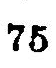75
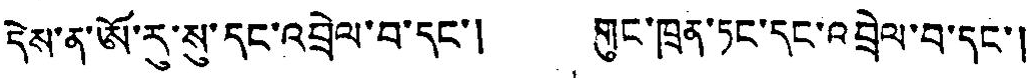དེས་ན་ཨོ་རུ་སུ་དང་འབྲེལ་བ་དང་། གུང་ཁྲན་ཏང་དང་འབྲེལ་བ་དང་།
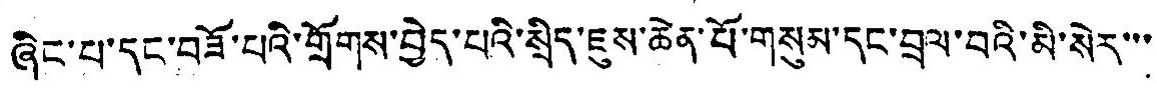ཞིང་པ་དང་བཟོ་པའི་གྲོགས་བྱེད་པའི་སྲིད་ཇུས་ཆེན་པོ་གསུམ་དང་བྲལ་བའི་མི་སེར་་་
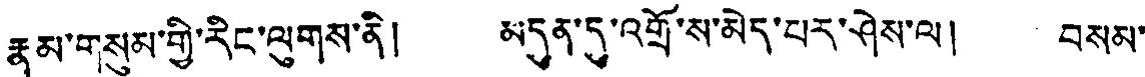རྣམ་གསུམ་གྱི་རིང་ལུགས་ནི། མདུན་དུ་འགྲོ་ས་མེད་པར་ཤེས་ལ། བསམ་
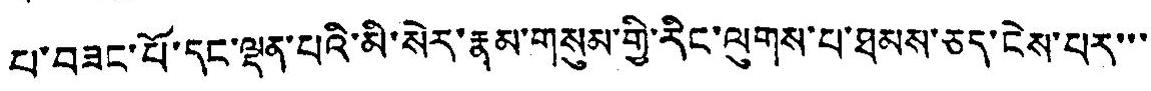པ་བཟང་པོ་དང་ལྡན་པའི་མི་སེར་རྣམ་གསུམ་གྱི་རིང་ལུགས་པ་ཐམས་ཅད་ངེས་པར་་་
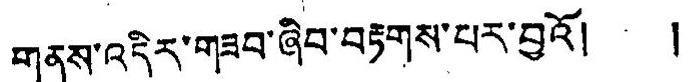གནས་འདིར་གཟབ་ཞིབ་བརྟགས་པར་བྱའོ། །
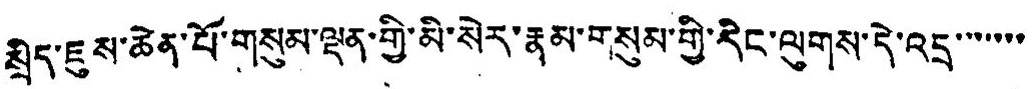སྲིད་ཇུས་ཆེན་པོ་གསུམ་ལྡན་གྱི་མི་སེར་རྣམ་གསུམ་གྱི་རིང་ལུགས་དེ་འདྲ་་་་་་་
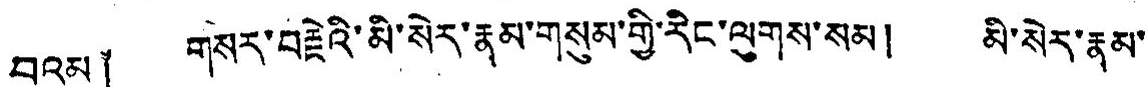བའམ༐ གསར་བརྗེའི་མི་སེར་རྣམ་གསུམ་གྱི་རིང་ལུགས་སམ། མི་སེར་རྣམ་
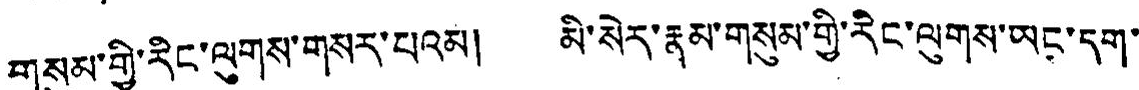གསུམ་གྱི་རིང་ལུགས་གསར་པའམ། མི་སེར་རྣམ་གསུམ་གྱི་རིང་ལུགས་ཡང་དག་
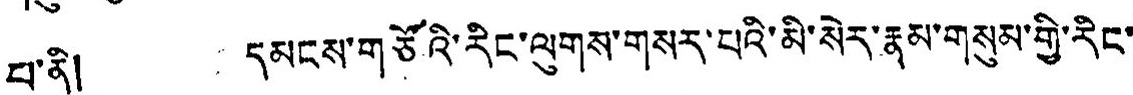པ་ནི། དམངས་གཙོའི་རིང་ལུགས་གསྲ་པའི་མི་སེར་རྣམ་གསུམ་གྱི་རིང་
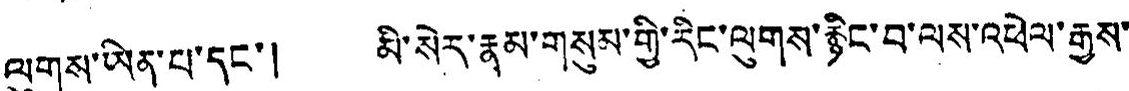ལུགས་ཡིན་པ་དང་། མི་སེར་རྣམ་གསུམ་གྱི་རིང་ལུགས་རྙིང་བ་ལས་འཕེལ་རྒྱུས་
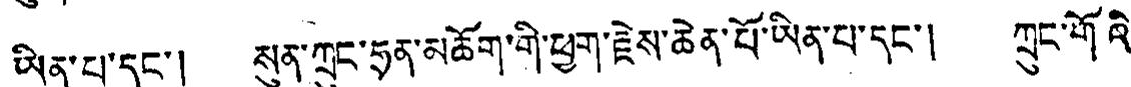ཡིན་པ་དང་། སུན་ཀྲུང་ཧྲན་མཆོག་གི་ཕྱག་རྗེས་ཆེན་པོ་ཡིན་པ་དང་། ཀྲུང་གོའི་
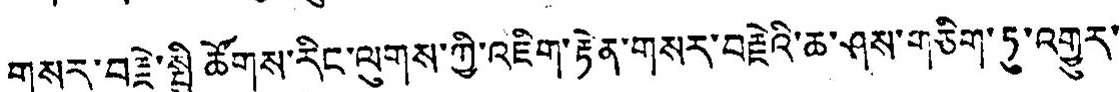གསར་བརྗེ་སྤྱི་ཚོགས་རིང་ལུགས་ཀྱི་འཇིག་རྟེན་གསར་བརྗེའི་ཆ་ཤས་གཅིག་ཏུ་འགྱུར་་
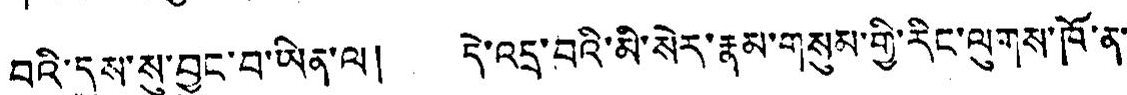བའི་དུས་སུ་བྱུང་བ་ཡིན་ལ། དེ་འདྲ་བའི་མི་སེར་རྣམ་གསུམ་གྱི་རིང་ལུགས་ཁོ་ན་
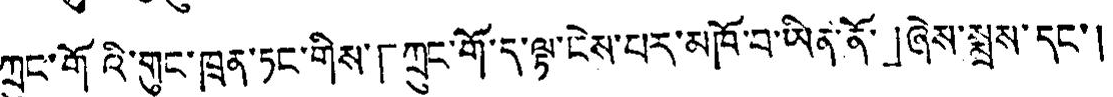ཀྲུང་གོའི་གུང་ཁྲན་ཏང་གིས་「ཀྲུང་གོ་ད་ལྟ་ངེས་པར་མཁོ་བ་ཡིན་ནོ་」ཞེས་སྨྲས་དང་།
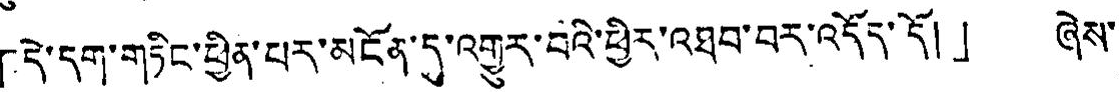「དེ་དག་གཏིང་ཕྱིན་པར་མངོན་དུ་འགྱུར་བའི་ཕྱིར་འཐབ་བར་འདོད་དོ།」 ཞེས་
